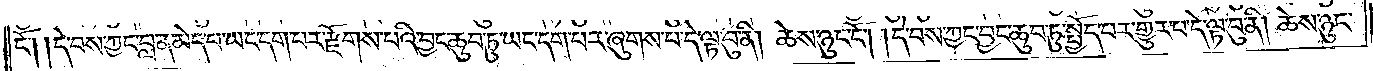ངོ༌། །དེ་བས་ཀྱང་བླ་ན་མེད་པ་ཡང་དག་པར་རྫོགས་པའི་བྱང་ཆུབ་ཏུ་ཡང་དག་པར་ཞུགས་པ་དེ་ལྟ་བུ་ནི། ཆེས་ཉུང་ངོ༌། །དེ་བས་ཀྱང་བྱང་ཆུབ་ཏུ་སྤྱོད་པར་གྱུར་པ་དེ་ལྟ་བུ་ནི། ཆེས་ཉུང་
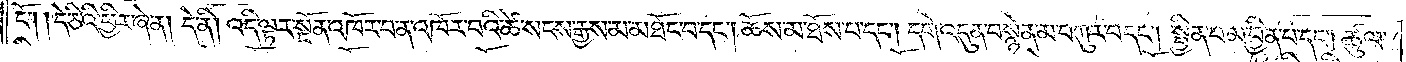ངོ༌། །དེ་ཅིའི་ཕྱིར་ཞེ་ན། དེ་ནི། འདི་ལྟར་སྔོན་འཁོར་བ་ན་འཁོར་བའི་ཚེ་སངས་རྒྱས་མ་མཐོང་བ་དང༌། ཆོས་མ་ཐོས་པ་དང༌། དགེ་འདུན་བསྙེན་མ་བཀུར་བ་དང༌། སྦྱིན་པ་མ་བྱིན་པ་དང༌། ཚུལ་
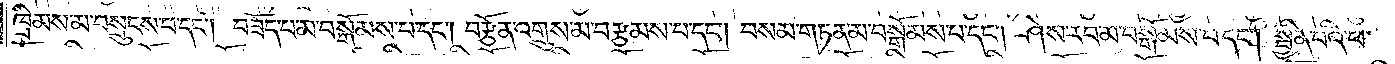ཁྲིམས་མ་བསྲུངས་པ་དང༌། བཟོད་པ་མ་བསྒོམས་པ་དང༌། བརྩོན་འགྲུས་མ་བརྩམས་པ་དང༌། བསམ་གཏན་མ་བསྒོམས་པ་དང༌། ཤེས་རབ་མ་བསྒོམས་པ་དང༌། སྦྱིན་པའི་ཕ་
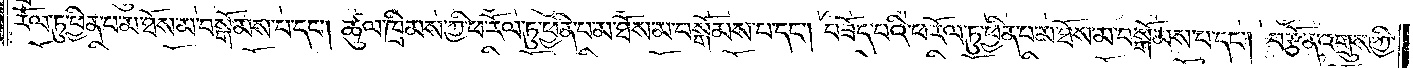རོལ་ཏུ་ཕྱིན་པ་མ་ཐོས་མ་བསྒོམས་པ་དང༌། ཚུལ་ཁྲིམས་ཀྱི་ཕ་རོལ་ཏུ་ཕྱིན་པ་མ་ཐོས་མ་བསྒོམས་པ་དང༌། བཟོད་པའི་ཕ་རོལ་ཏུ་ཕྱིན་པ་མ་ཐོས་མ་བསྒོམས་པ་དང༌། བརྩོན་འགྲུས་ཀྱི་
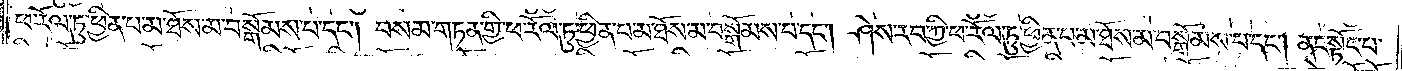ཕ་རོལ་ཏུ་ཕྱིན་པ་མ་ཐོས་མ་བསྒོམས་པ་དང༌། བསམ་གཏན་གྱི་ཕ་རོལ་ཏུ་ཕྱིན་པ་མ་ཐོས་མ་བསྒོམས་པ་དང༌། ཤེས་རབ་ཀྱི་ཕ་རོལ་ཏུ་ཕྱིན་པ་མ་ཐོས་མ་བསྒོམས་པ་དང༌། ནང་སྟོང་པ་
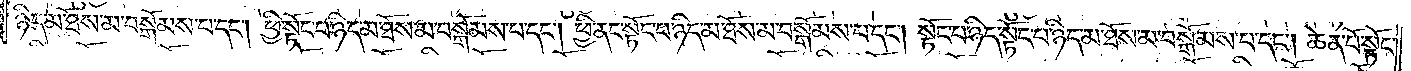ཉིད་མ་ཐོས་མ་བསྒོམས་པ་དང༌། ཕྱི་སྟོང་པ་ཉིད་མ་ཐོས་མ་བསྒོམས་པ་དང༌། ཕྱི་ནང་སྟོང་པ་ཉིད་མ་ཐོས་མ་བསྒོམས་པ་དང༌། སྟོང་པ་ཉིད་སྟོང་པ་ཉིད་མ་ཐོས་མ་བསྒོམས་པ་དང༌། ཆེན་པོ་སྟོང་
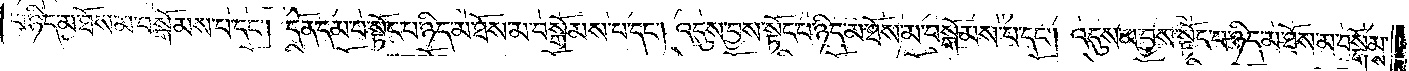པ་ཉིད་མ་ཐོས་མ་བསྒོམས་པ་དང༌། དོན་དམ་པ་སྟོང་པ་ཉིད་མ་ཐོས་མ་བསྒོམས་པ་དང༌། འདུས་བྱས་སྟོང་པ་ཉིད་མ་ཐོས་མ་བསྒོམས་པ་དང༌། འདུས་མ་བྱས་སྟོང་པ་ཉིད་མ་ཐོས་མ་བསྒོམས་
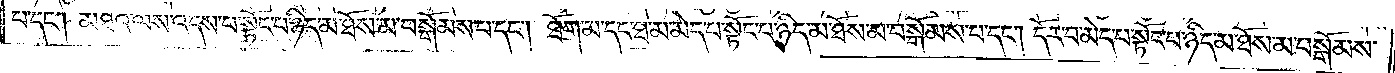པ་དང༌། མཐའ་ལས་འདས་པ་སྟོང་པ་ཉིད་མ་ཐོས་མ་བསྒོམས་པ་དང༌། ཐོག་མ་དང་ཐ་མ་མེད་པ་སྟོང་པ་ཉིད་མ་ཐོས་མ་བསྒོམས་པ་དང༌། དོར་བ་མེད་པ་སྟོང་པ་ཉིད་མ་ཐོས་མ་བསྒོམས་
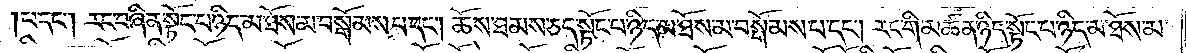པ་དང༌། རང་བཞིན་སྟོང་པ་ཉིད་མ་ཐོས་མ་བསྒོམས་པ་དང༌། ཆོས་ཐམས་ཅད་སྟོང་པ་ཉིད་མ་ཐོས་མ་བསྒོམས་པ་དང༌། རང་གི་མཚན་ཉིད་སྟོང་པ་ཉིད་མ་ཐོས་མ་
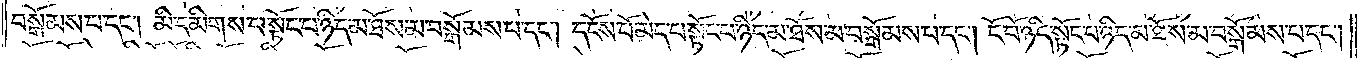བསྒོམས་པ་དང༌། མི་དམིགས་པ་སྟོང་པ་ཉིད་མ་ཐོས་མ་བསྒོམས་པ་དང༌། དངོས་པོ་མེད་པ་སྟོང་པ་ཉིད་མ་ཐོས་མ་བསྒོམས་པ་དང༌། ངོ་བོ་ཉིད་སྟོང་པ་ཉིད་མ་ཐོས་མ་བསྒོམས་པ་དང༌།
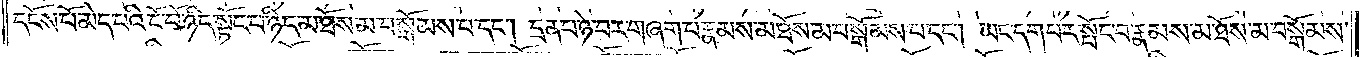དངོས་པོ་མེད་པའི་ངོ་བོ་ཉིད་སྟོང་པ་ཉིད་མ་ཐོས་མ་བསྒོམས་པ་དང༌། དྲན་པ་ཉེ་བར་བཞག་པ་རྣམས་མ་ཐོས་མ་བསྒོམས་པ་དང༌། ཡང་དག་པར་སྤོང་བ་རྣམས་མ་ཐོས་མ་བསྒོམས་
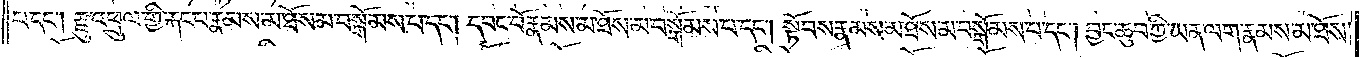པ་དང༌། རྫུ་འཕྲུལ་གྱི་རྐང་པ་རྣམས་མ་ཐོས་མ་བསྒོམས་པ་དང༌། དབང་པོ་རྣམས་མ་ཐོས་མ་བསྒོམས་པ་དང༌། སྟོབས་རྣམས་མ་ཐོས་མ་བསྒོམས་པ་དང༌། བྱང་ཆུབ་ཀྱི་ཡན་ལག་རྣམས་མ་ཐོས་
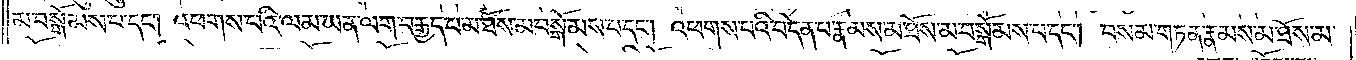མ་བསྒོམས་པ་དང༌། འཕགས་པའི་ལམ་ཡན་ལག་བརྒྱད་པ་མ་ཐོས་མ་བསྒོམས་པ་དང༌། འཕགས་པའི་བདེན་པ་རྣམས་མ་ཐོས་མ་བསྒོམས་པ་དང༌། བསམ་གཏན་རྣམས་མ་ཐོས་མ་
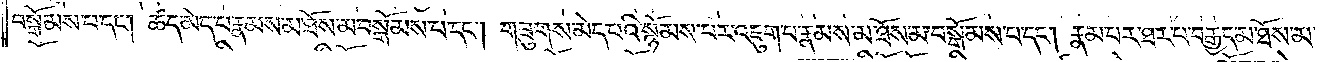བསྒོམས་པ་དང༌། ཚད་མེད་པ་རྣམས་མ་ཐོས་མ་བསྒོམས་པ་དང༌། གཟུགས་མེད་པའི་སྙོམས་པར་འཇུག་པ་རྣམས་མ་ཐོས་མ་བསྒོམས་པ་དང༌། རྣམ་པར་ཐར་པ་བརྒྱད་མ་ཐོས་མ་
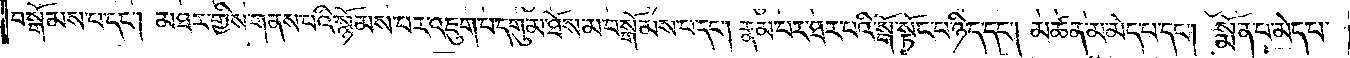བསྒོམས་པ་དང༌། མཐར་གྱིས་གནས་བའི་སྙོམས་པར་འཇུག་པ་དགུ་མ་ཐོས་མ་བསྒོམས་པ་དང༌། རྣམ་པར་ཐར་པའི་སྒོ་སྟོང་པ་ཉིད་དང༌། མཚན་མ་མེད་པ་དང༌། སྨོན་པ་མེད་པ་
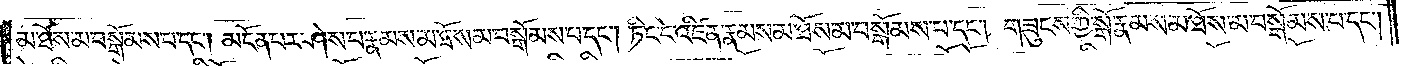མ་ཐོས་མ་བསྒོམས་པ་དང༌། མངོན་པར་ཤེས་པ་རྣམས་མ་ཐོས་མ་བསྒོམས་པ་དང༌། ཏིང་ངེ་འཛིན་རྣམས་མ་ཐོས་མ་བསྒོམས་པ་དང༌། གཟུངས་ཀྱི་སྒོ་རྣམས་མ་ཐོས་མ་བསྒོམས་པ་དང༌།
